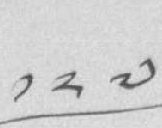༡༢༧
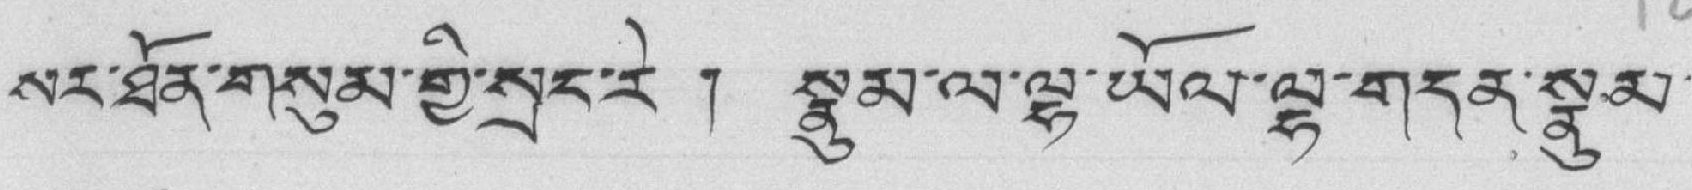སར་ཐོན་གསུམ་གྱི་སྲང་རེ ། སྣུམ་ལ་ལྷ་ཡོལ་ལྷ་གདན་སྣུམ་
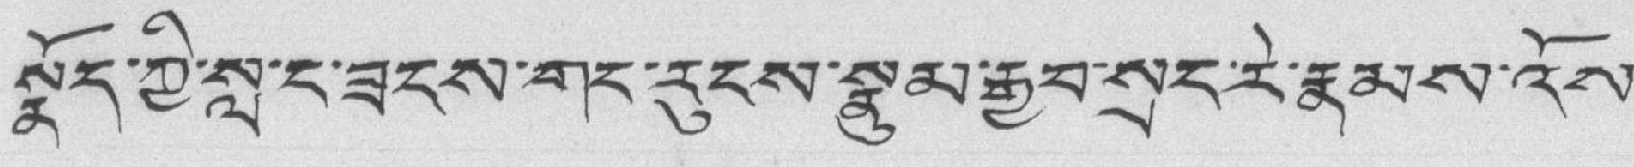སྣོད་ཀྱི་སླ་ང་ཟངས་གང་རུངས་སྣུམ་རྒྱབ་སྲང་རེ་རྣམས་འོས་
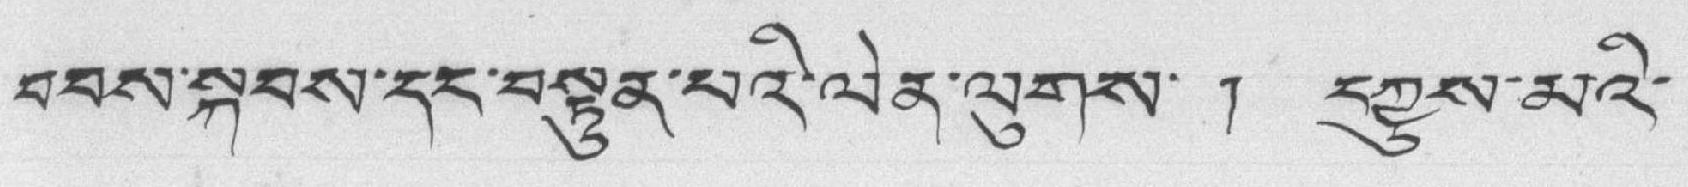བབས་སྐབས་དང་བསྟུན་པའི་ལེན་ལུགས་ ། དཀྱུས་མའི་
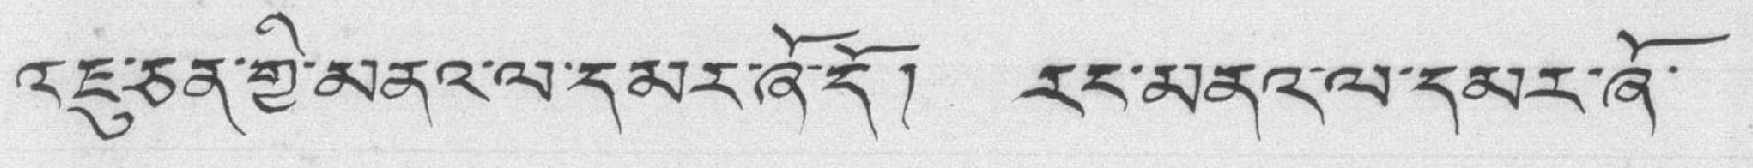འཇུ་ཅན་གྱི་མནའ་ལ་དམར་ཞོ་དོ། རང་མནའ་ལ་དམར་ཞོ་
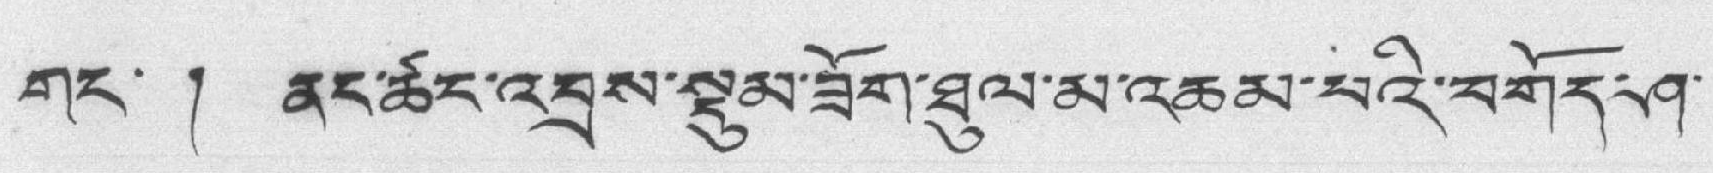གང་ ། ནང་ཚང་འབྲས་སྡུམ་ཟོག་ཐུལ་མ་འཆམ་པའི་བགོད་ཤ་
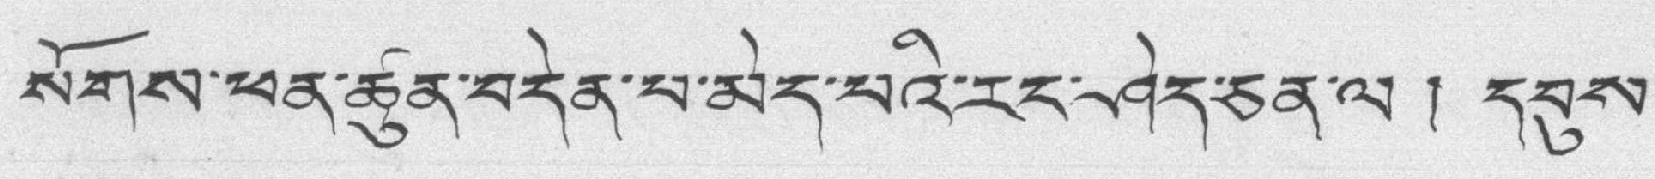སོགས་ཕན་ཚུན་བདེན་པ་མེད་པའི་རང་ཤེད་ཅན་ལ ། དབུས་
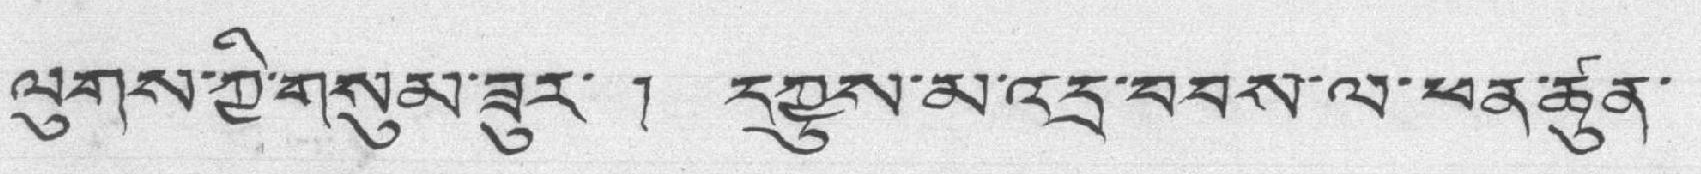ལུགས་ཀྱི་གསུམ་ཟུར་ ། དཀྱུས་མི་འདྲ་བབས་ལ་ཕན་ཚུན་
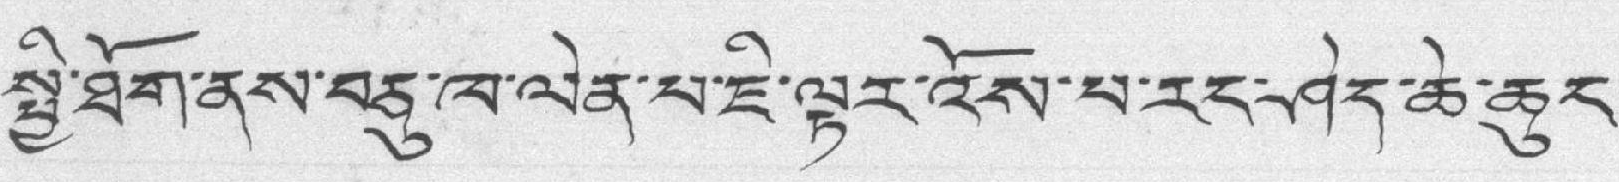སྤྱི་ཐོག་ནས་བཅུ་ཁ་ལེན་པ་ཇི་ལྟར་འོས་པ་རང་ཤེད་ཆེ་ཆུང་
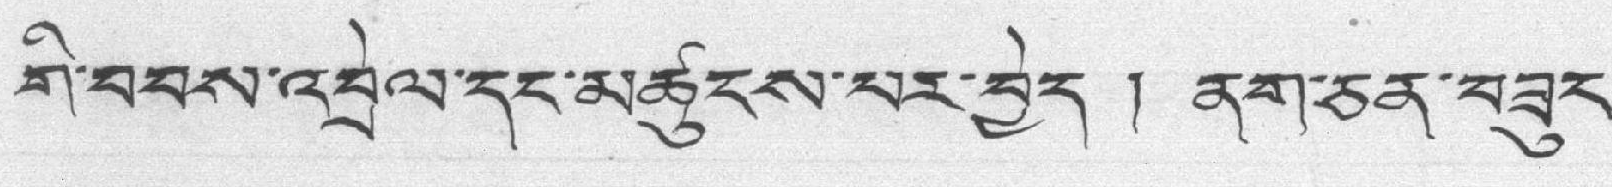གི་བབས་འབྲེལ་དང་མཚུངས་པར་བྱེད ། ནག་ཅན་བཟུང་
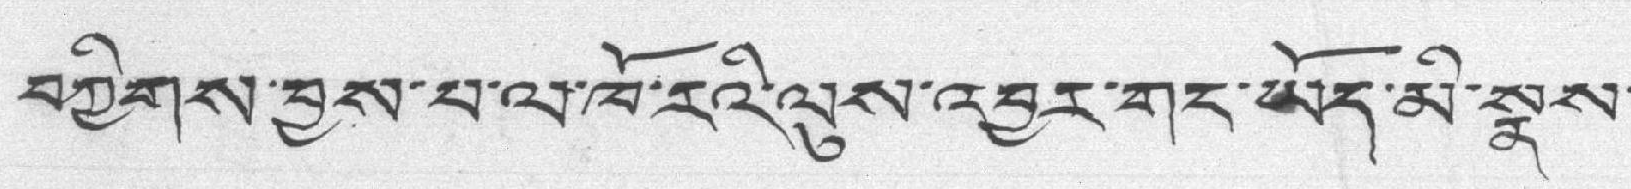བཀྱིགས་བྱས་པ་ལ་ཁོ་རའི་ལུས་འབྱར་གང་ཡོད་མི་སྣས་
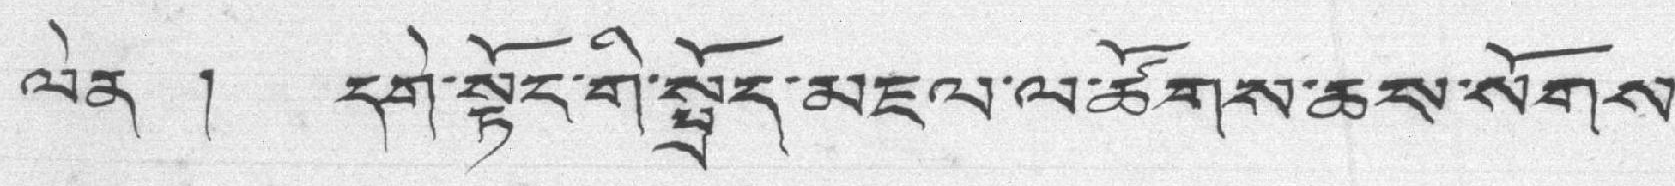ལེན ། དགེ་སྟོང་གི་སྤྲོད་མཇལ་ལ་ཚོགས་ཆས་སོགས་
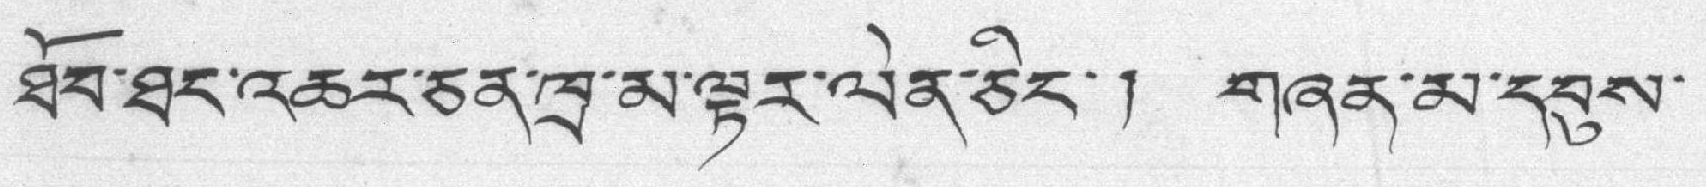ཐོབ་ཐང་འཆར་ཅན་ཁྲ་མ་ལྟར་ལེན་ཅིང་། གཞན་མ་དབུས་
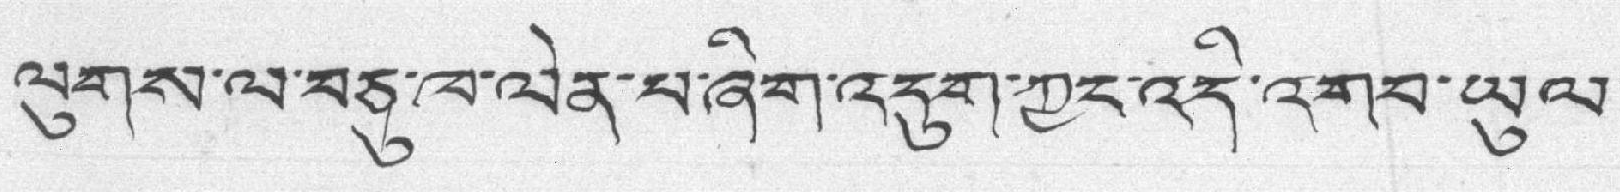ལུགས་ལ་བཅུ་ཁ་ལེན་པ་ཞིག་འདུག་ཀྱང་འདི་འགབ་ཡུལ་
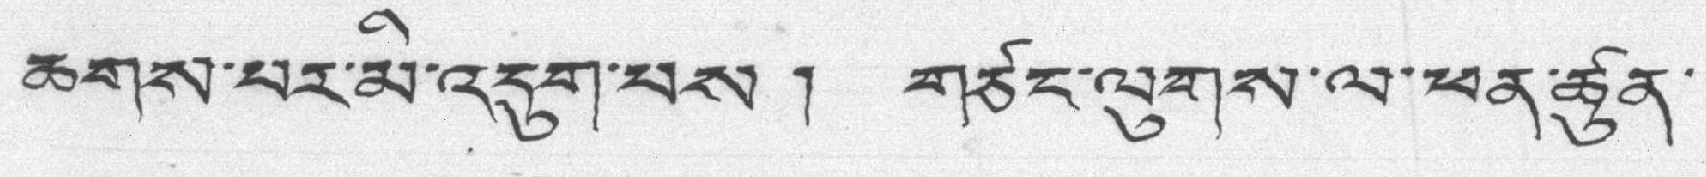ཆགས་པར་མི་འདུག་པས ། གཙང་ལུགས་ལ་ཕན་ཚུན་
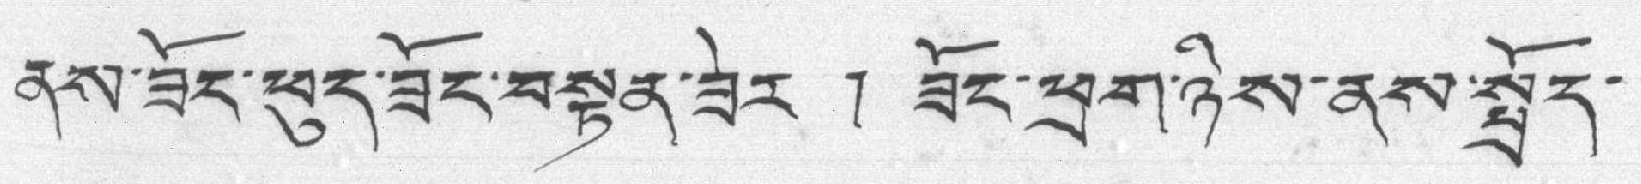ནས་ཟོང་ཕུད་ཟོང་བསྟན་ཟེར ། ཟོང་ཕྲག་ཉིས་ནས་སྤྲོད་
